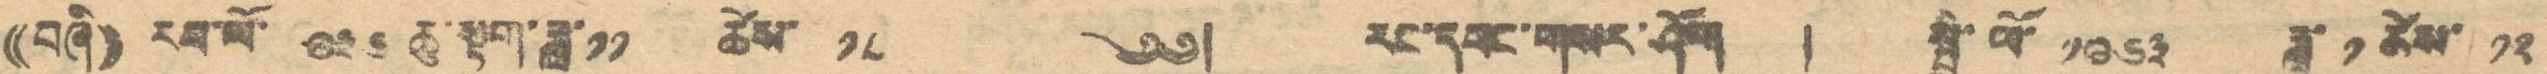(( བཞི ) རབ་ལོ་ ༩༣༦ ཆུ་སྟག་ཟླ་༡༡ ཚེས་ ༡༨ ༄༅། རང་དབང་གསར་ཤོག ། སྤྱི་ལོ་ ༡༩༦༣ ཟླ་ ༡ ཚེས་ ༡༢
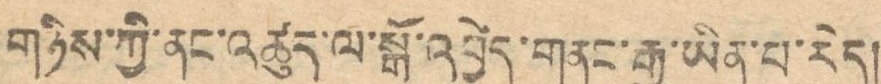གཉིས་ཀྱི་ནང་འཚུད་ལ་སྒོ་འབྱེད་གནང་རྒྱུ་ཡིན་པ་རེད།
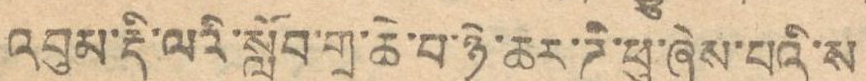འབུམ་རྡི་ལའི་སློབ་གྲྭ་ཆེ་བ་ཉེ་ཆར་ཌི་ཕུ་ཞེས་པའི་ས
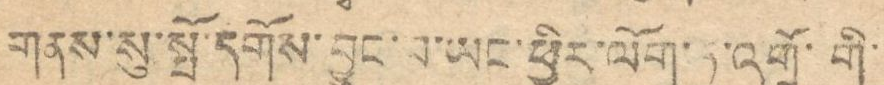གནས་སུ་སྤོ་དགོས་བྱུང་བ་ཡང་ཕྱིར་ལོག་ཏུ་འགྲོ་གི་
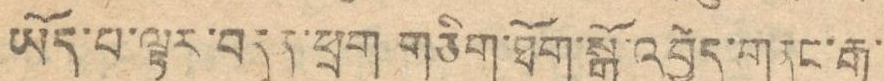ཡོད་པ་ལྟར་བདུད་ཕྲག་གཅིག་ཐོག་སྒོ་འབྱེད་གནང་རྒྱུ་
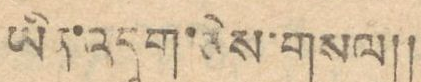ཡིན་འདུག་ཅེས་གསལ།།
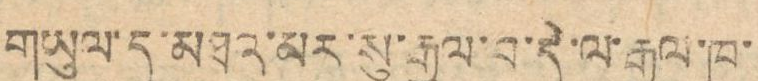གཡུལ་དུ་མཐའ་མར་སུ་རྒྱལ་བ་དེ་ལ་རྒྱལ་ཁ་
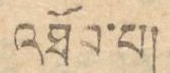འཐོབ་པ།
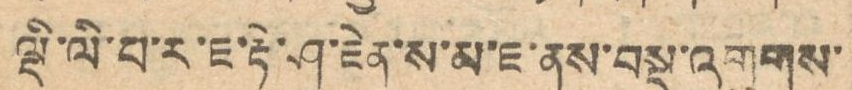ལྡི་ལི་པ་ར་ཇ་རྟེ་ཤ་ཇེན་ས་མ་ཇ་ནས་བསྡུ་འགུགས་
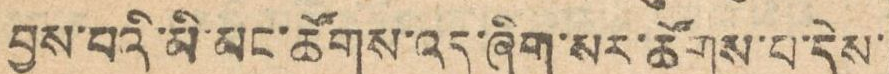བྱས་པའི་མི་མང་ཚོགས་འདུ་ཞིག་སར་ཚོགས་པ་དེས་
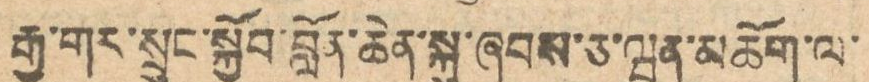རྒྱ་གར་སྲུང་སྐྱོབ་བློན་ཆེན་སྐུ་ཞབས་ཅ་ཝན་མཆོག་ལ་
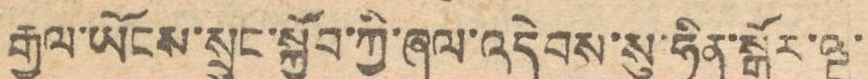རྒྱལ་ཡོངས་སྲུང་སྐྱོབ་ཀྱི་ཞལ་འདེབས་སུ་ཧིན་སྒོར་ལྔ་
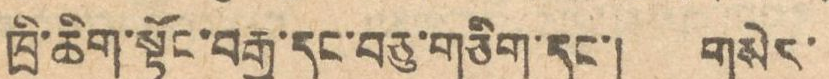ཁྲི་ཆིག་སྟོང་བརྒྱ་དང་བཅུ་གཅིག་དང་། གསེར་
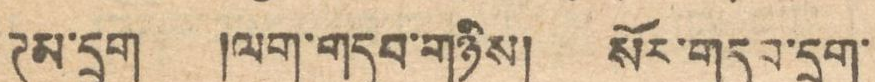ཊམ་དྲུག །ལག་གདུབ་གཉིས། སོར་གདུབ་དྲུག་
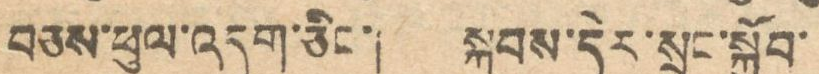བཅས་ཕུལ་འདུག་ཅིང་། སྐབས་དེར་སྲུང་སྐྱོབ་
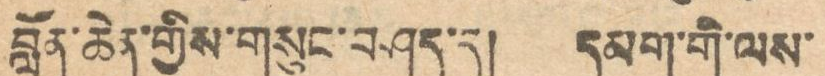བློན་ཆེན་གྱིས་གསུང་བཤད་དུ། དམག་གི་ལས་
